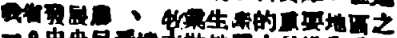我省發展農 、牧業生產的重要地區之
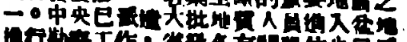一。中央已派遣大批地質人員進入盆地
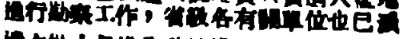進行勘察工作，省級各有關單位也已派
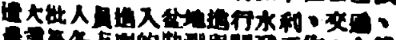遣大批人員進入盆地進行水利、交通、
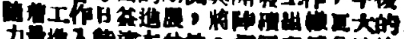隨着工作日益進展，將陸續組織更大的
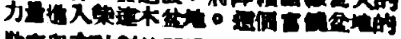力量進入柴達木盆地。這個富饒盆地的
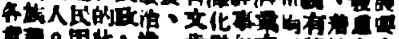各族人民的政治、文化事業均有着重要
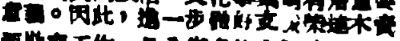意義。因此，進一步做好支援柴達木資
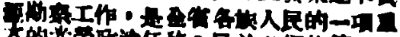源勘察工作，是全省各族人民的一項重
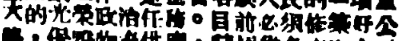大的光榮政治任務。目前必須修築好公
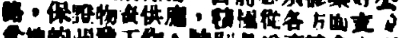路，保證物資供應，積極從各方面支援
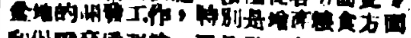盆地的開發工作，特別是增產粮食方面
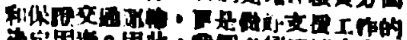和保證交通運輸，更是做好支援工作的
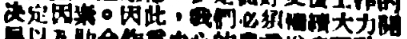決定因素。因此，我們必須繼續大力開
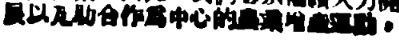展以互助合作爲中心的農業增產運動，
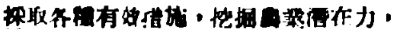採取各種有效措施，挖掘農業潛在力，
